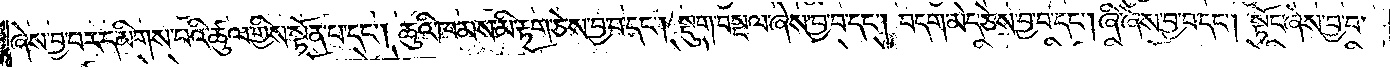ཞེས་བྱ་བར་དམིགས་པའི་ཚུལ་གྱིས་སྟོན་པ་དང༌། ཆུའི་ཁམས་མི་རྟག་ཅེས་བྱ་བ་དང༌། སྡུག་བསྔལ་ཞེས་བྱ་བ་དང༌། བདག་མེད་ཅེས་བྱ་བ་དང༌། ཞི་ཞས་བྱ་བ་དང༌། སྟོང་ཞེས་བྱ་བ་
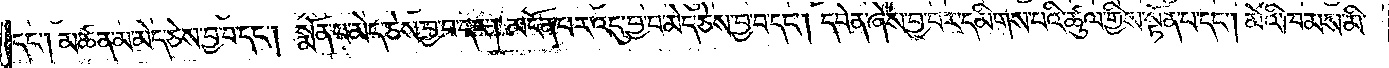དང༌། མཚན་མ་མེད་ཅེས་བྱ་བ་དང༌། སྨོན་པ་མེད་ཅེས་བྱ་བ་དང༌། མངོན་པར་འདུ་བྱ་བ་མེད་ཅེས་བྱ་བ་དང༌། དབེན་ཞེས་བྱ་བར་དམིགས་པའི་ཚུལ་གྱིས་སྟོན་པ་དང༌། མེའི་ཁམས་མི་
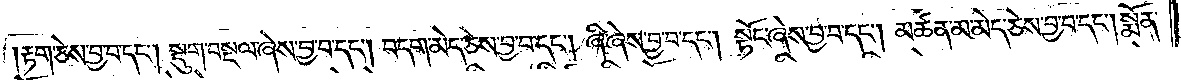རྟག་ཅེས་བྱ་བ་དང༌། སྡུག་བསྔལ་ཞེས་བྱ་བ་དང༌། བདག་མེད་ཅེས་བྱ་བ་དང༌། ཞི་ཞེས་བྱ་བ་དང༌། སྟོང་ཞེས་བྱ་བ་དང༌། མཚན་མ་མེད་ཅེས་བྱ་བ་དང༌། སྨོན་
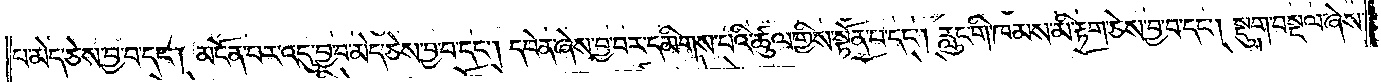པ་མེད་ཅེས་བྱ་བ་དང༌། མངོན་པར་འདུ་བྱ་བ་མེད་ཅེས་བྱ་བ་དང༌། དབེན་ཞེས་བྱ་བར་དམིགས་བའི་ཚུལ་གྱིས་སྟོན་པ་དང༌། རླུང་གི་ཁམས་མི་རྟག་ཅེས་བྱ་བ་དང༌། སྡུག་བསྔལ་ཞེས་
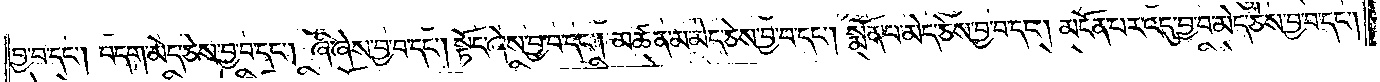བྱ་བ་དང༌། བདག་མེད་ཅེས་བྱ་བ་དང༌། ཞི་ཞེས་བྱ་བ་དང༌། སྟོང་ཞེས་བྱ་བ་དང༌། །མཚན་མ་མེད་ཅེས་བྱ་བ་དང༌། སྨོན་པ་མེད་ཅེས་བྱ་བ་དང༌། མངོན་པར་འདུ་བྱ་བ་མེད་ཅེས་བྱ་བ་དང༌།
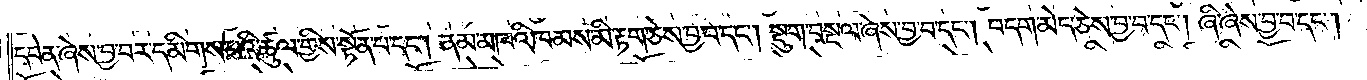དབེན་ཞེས་བྱ་བར་དམིགས་པའི་ཚུལ་གྱིས་སྟོན་པ་དང༌། ནམ་མཁའི་ཁམས་མི་རྟག་ཅེས་བྱ་བ་དང༌། སྡུག་བསྔལ་ཞེས་བྱ་བ་དང༌། བདག་མེད་ཅེས་བྱ་བ་དང༌། ཞི་ཞེས་བྱ་བ་དང༌།
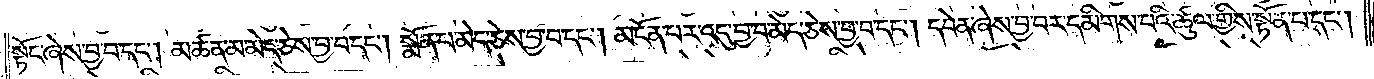སྟོང་ཞེས་བྱ་བ་དང༌། མཚན་མ་མེད་ཅེས་བྱ་བ་དང༌། སྨོན་པ་མེད་ཅེས་བྱ་བ་དང༌། མངོན་པར་འདུ་བྱ་བ་མེད་ཅེས་བྱ་བ་དང༌། དབེན་ཞེས་བྱ་བར་དམིགས་པའི་ཚུལ་གྱིས་སྟོན་པ་དང༌།
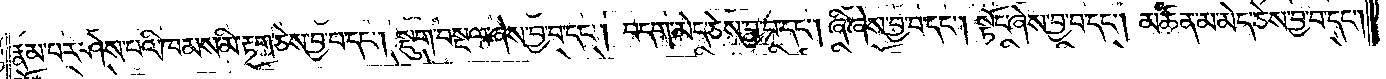རྣམ་པར་ཤེས་པའི་ཁམས་མི་རྟག་ཅེས་བྱ་བ་དང༌། སྡུག་བསྔལ་ཞེས་བྱ་བ་དང༌། བདག་མེད་ཅེས་བྱ་བ་དང༌། ཞི་ཞེས་བྱ་བ་དང༌། སྟོང་ཞེས་བྱ་བ་དང༌། མཚན་མ་མེད་ཅེས་བྱ་བ་དང༌།
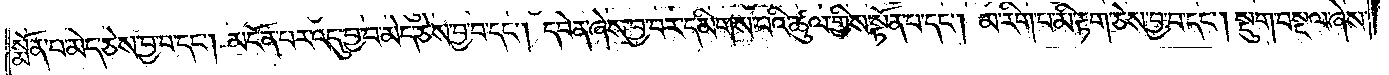སྨོན་པ་མེད་ཅེས་བྱ་བ་དང༌། མངོན་པར་འདུ་བྱ་བ་མེད་ཅེས་བྱ་བ་དང༌། དབེན་ཞེས་བྱ་བར་དམིགས་པའི་ཚུལ་གྱིས་སྟོན་པ་དང༌། མ་རིག་པ་མི་རྟག་ཅེས་བྱ་བ་དང༌། སྡུག་བསྔལ་ཞེས་
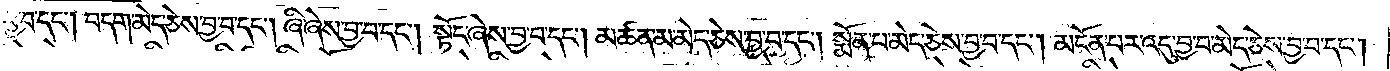བྱ་བ་དང༌། བདག་མེད་ཅེས་བྱ་བ་དང༌། ཞི་ཞེས་བྱ་བ་དང༌། སྟོང་ཞེས་བྱ་བ་དང༌། མཚན་མ་མེད་ཅེས་བྱ་བ་དང༌། སྨོན་པ་མེད་ཅེས་བྱ་བ་དང༌། མངོན་པར་འདུ་བྱ་བ་མེད་ཅེས་བྱ་བ་དང༌།
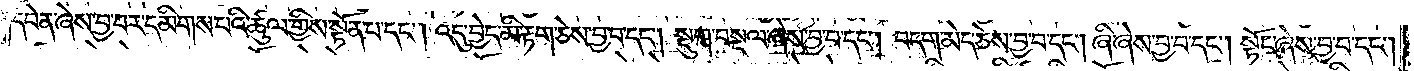དབེན་ཞེས་བྱ་བར་དམིགས་པའི་ཚུལ་གྱིས་སྟོན་པ་དང༌། འདུ་བྱེད་མི་རྟག་ཅེས་བྱ་བ་དང༌། སྡུག་བསྔལ་ཞེས་བྱ་བ་དང༌། བདག་མེད་ཅེས་བྱ་བ་དང༌། ཞི་ཞེས་བྱ་བ་དང༌། སྟོང་ཞེས་བྱ་བ་དང༌།
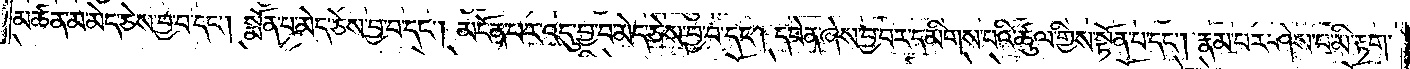མཚན་མ་མེད་ཅེས་བྱ་བ་དང༌། སྨོན་པ་མེད་ཅེས་བྱ་བ་དང༌། མངོན་པར་འདུ་བྱ་བ་མེད་ཅེས་བྱ་བ་དང༌། དབེན་ཞེས་བྱ་བར་དམིགས་པའི་ཚུལ་གྱིས་སྟོན་པ་དང༌། རྣམ་པར་ཤེས་པ་མི་རྟག་
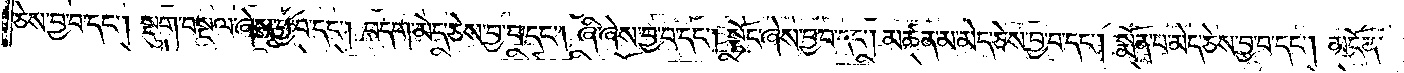ཅེས་བྱ་བ་དང༌། སྡུག་བསྔལ་ཞེས་བྱ་བ་དང༌། བདག་མེད་ཅེས་བྱ་བ་དང༌། ཞི་ཞེས་བྱ་བ་དང༌། སྟོང་ཞེས་བྱ་བ་དང༌། མཚན་མ་མེད་ཅེས་བྱ་བ་དང༌། སྨོན་པ་མེད་ཅེས་བྱ་བ་དང༌། མངོན་
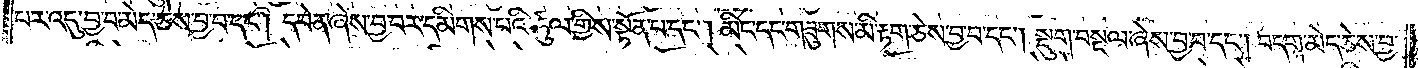པར་འདུ་བྱ་བ་མེད་ཅེས་བྱ་བ་དང༌། དབེན་ཞེས་བྱ་བར་དམིགས་པའི་ཚུལ་གྱིས་སྟོན་པ་དང༌། མིང་དང་གཟུགས་མི་རྟག་ཅེས་བྱ་བ་དང༌། སྡུག་བསྔལ་ཞེས་བྱ་བ་དང༌། བདག་མེད་ཅེས་བྱ་
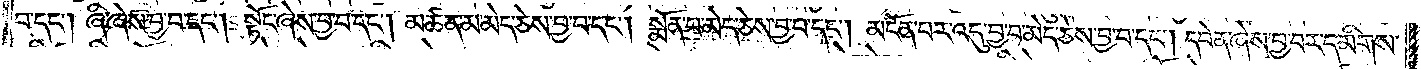བ་དང༌། ཞི་ཞེས་བྱ་བ་དང༌། སྟོང་ཞེས་བྱ་བ་དང༌། མཚན་མ་མེད་ཅེས་བྱ་བ་དང༌། སྨོན་པ་མེད་ཅེས་བྱ་བ་དང༌། མངོན་པར་འདུ་བྱ་བ་མེད་ཅེས་བྱ་བ་དང༌། དབེན་ཞེས་བྱ་བར་དམིགས་
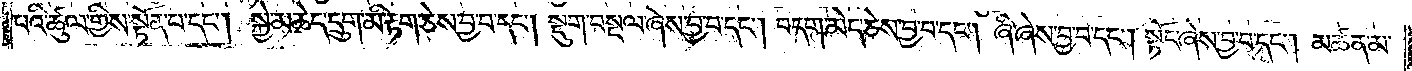པའི་ཚུལ་གྱིས་སྟོན་པ་དང༌། སྐྱེ་མཆེད་དྲུག་མི་རྟག་ཅེས་བྱ་བ་དང༌། སྡུག་བསྔལ་ཞེས་བྱ་བ་དང༌། བདག་མེད་ཅེས་བྱ་བ་དང༌། ཞི་ཞེས་བྱ་བ་དང༌། སྟོང་ཞེས་བྱ་བ་དང༌། མཚན་མ་
